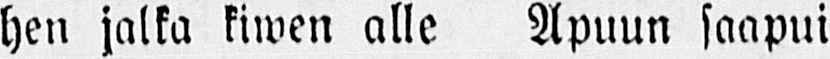hen jalka kiwen alle Apuun saapui
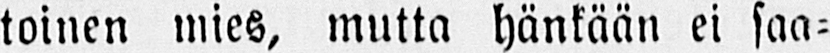toinen mies, mutta hänkään ei saa-
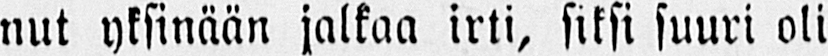nut yksinään jalkaa irti, siksi suuri oli
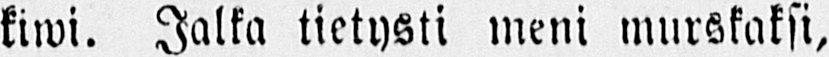kiwi. Jalka tietysti meni murskaksi,
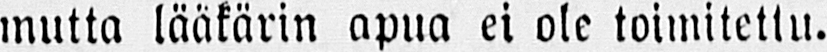mutta lääkärin apua ei ole toimitettu.
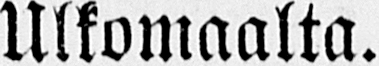Ulkomaalta.
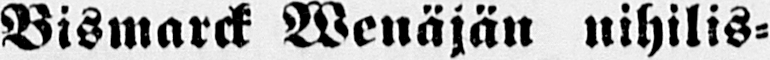Bismarck Wenäjän nihilis-
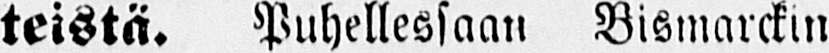teistä. Puhellessaan Bismarckin
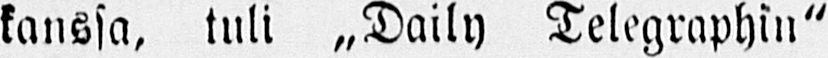kanssa, tuli „Daily Telegraphin"
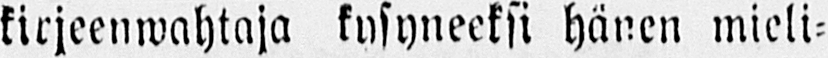kirjeenwahtaja kysyneeksi hänen mieli-
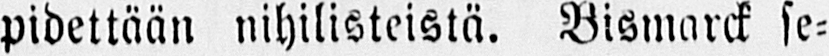pidettään nihilisteistä. Bismarck se-
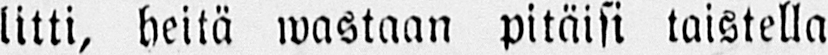litti, heitä wastaan pitäisi taistella
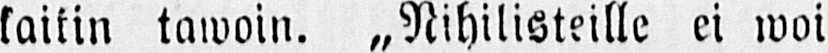kaikin tawoin. „Nihilisteille ei woi
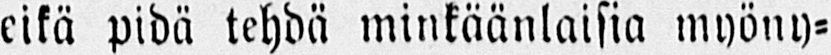eikä pidä tehdä minkäänlaisia myöny-
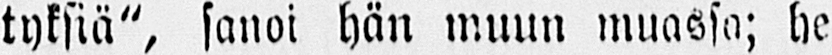tyksiä", sanoi hän muun muassa; he
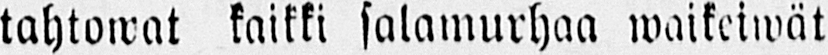tahtowat kaikki salamurhaa waikeiwät
